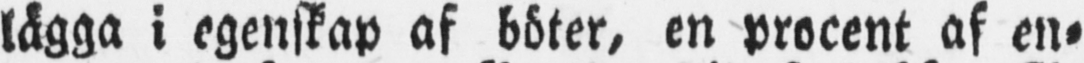lägga i egenskap af böter, en procent af en-
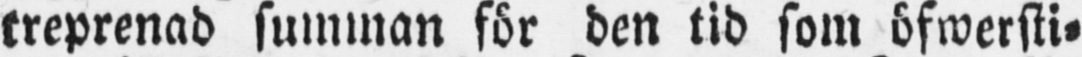treprenad summan för den tid som öfwersti-
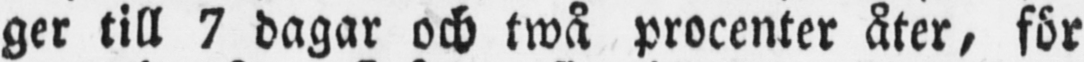ger till 7 dagar och twå procenter åter, för
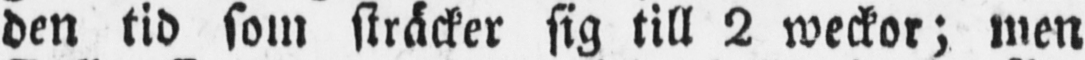den tid som sträcker sig till 2 weckor; men
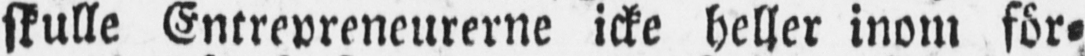skulle Entrepreneurerne icke heller inom för-
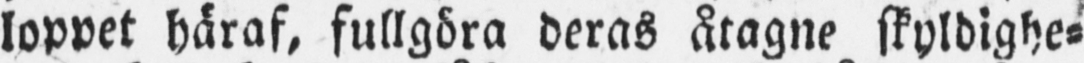loppet häraf, fullgöra deras åtagne skyldighe-
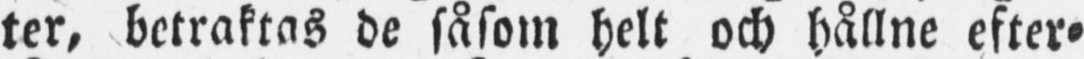ter, betraktas de såsom helt och hållne efter-
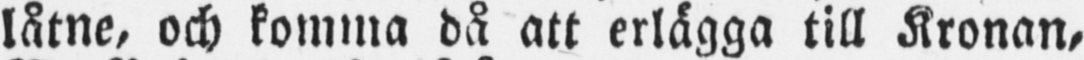låtne, och komma då att erlägga till Kronan,
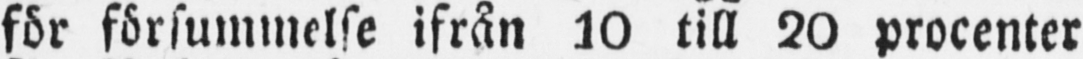för försummelse ifrån 10 till 20 procenter
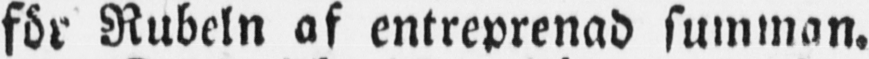för Rubeln af entreprenad summan.
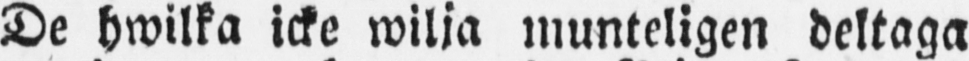De hwilka icke wilja munteligen deltaga
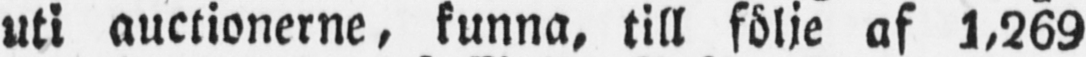uti auctionerne, kunna, till följe af 1,269
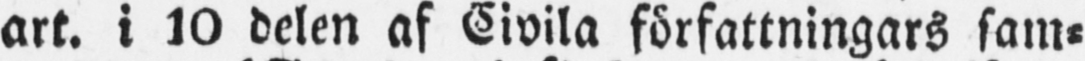art. i 10 delen af Civila författningars sam-
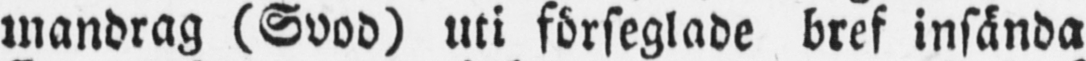mandrag (Svod) uti förseglade bref insända
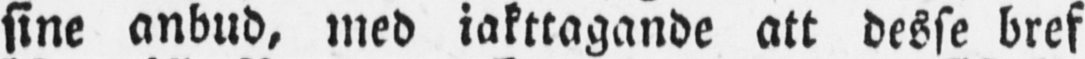sine anbud, med iakttagande att desse bref
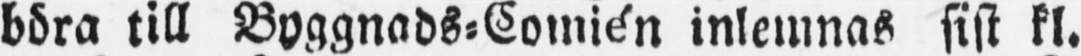böra till Byggnads-Comién inlemnas sist kl.
